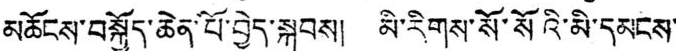མཆོངས་བསྐྱོད་ཆེན་པོ་བྱེད་སྐབས། མི་རིགས་སོ་སོའི་མི་དམངས་
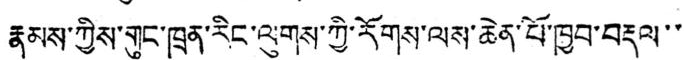རྣམས་ཀྱིས་གུང་ཁྲན་རིང་ལུགས་ཀྱི་རོགས་ལས་ཆེན་པོ་ཁྱབ་བརྡལ་་
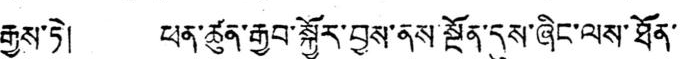རྒྱས་ཏེ། ཕན་ཚུན་རྒྱབ་སྐྱོར་བྱས་ནས་སྔོན་དུས་ཞིང་ལས་ཐོན་
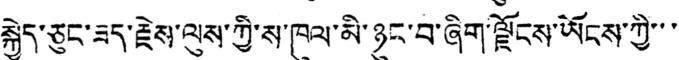སྐྱེད་ཅུང་ཟད་རྗེས་ལུས་ཀྱི་ས་ཁུལ་མི་ཉུང་བ་ཞིག་ལྗོངས་ཡོངས་ཀྱི་་་
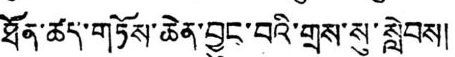ཐོན་ཚད་གཏོས་ཆེན་བྱུང་བའི་གྲས་སུ་སླེབས།
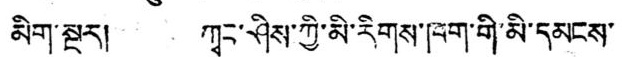མིག་སྔར། ཀྭང་ཤིས་ཀྱི་མི་རིགས་ཁག་གི་མི་དམངས་
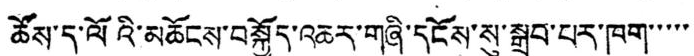ཚོས་ད་ལོའི་མཆོངས་བསྐྱོད་འཆར་གཞི་དངོས་སུ་སྒྲུབ་པར་ཁག་་་་་
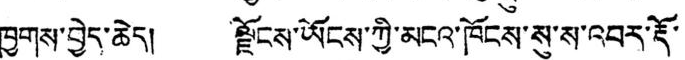ཁྱགས་བྱེད་ཆེད། ལྗོངས་ཡོངས་ཀྱི་མངའ་ཁོངས་སུ་ས་འབར་རྡོ་
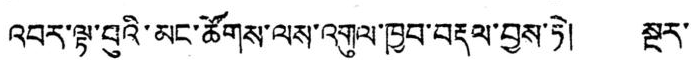འབར་ལྟ་བུའི་མང་ཚོགས་ལས་འགུལ་ཁྱབ་བརྡལ་བྱས་ཏེ། སྔར་
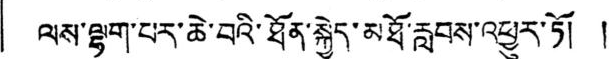ལས་ལྷག་པར་ཆེ་བའི་ཐོན་སྐྱེད་མཐོ་རླབས་འཕྱུར་ཏོ། །
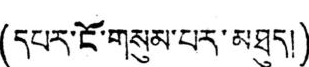(དཔར་ངོ་གསུམ་པར་མཐུད།)
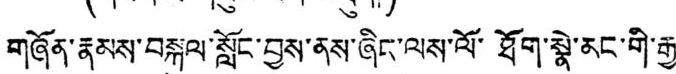གཞོན་རྣམས་བསྐུལ་སློང་བྱས་ནས་ཞིང་ལས་ལོ་ཐོག་སྣེ་མང་གི་རྒྱ་་
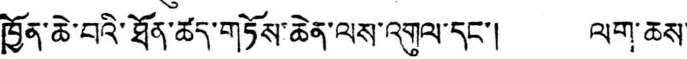ཁྱོན་ཆེ་བའི་ཐོན་ཚད་གཏོས་ཆེན་ལས་འགུལ་དང་། ལག་ཆས་
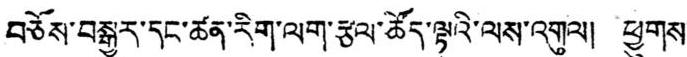བཅོས་བསྒྱུར་དང་ཚན་རིག་ལག་རྩལ་ཚོད་ལྟའི་ལས་འགུལ། ཕྱུགས་
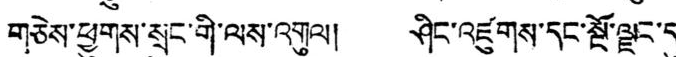གཅེས་ཕྱུགས་སྲུང་གི་ལས་འགུལ། ཤིང་འཛུགས་དང་སྔོ་ལྗང་དུ་
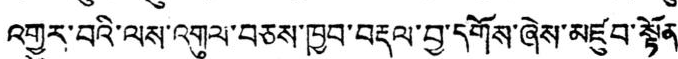འགྱུར་བའི་ལས་འགུལ་བཅས་ཁྱབ་བརྡལ་བྱ་དགོས་ཞེས་མཛུབ་སྟོན་
